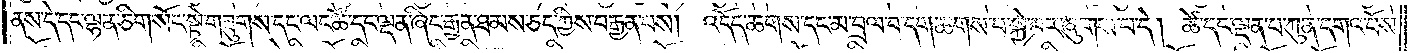ནས་དེ་དང་ལྷན་ཅིག་སོང་སྟེ་གཟུགས་དང་ལང་ཚོ་དང་ལྡན་ཞིང་རྒྱན་ཐམས་ཅད་ཀྱིས་བརྒྱན་པས། འདོད་ཆགས་དང་མ་བྲལ་བ་དག་ཆགས་པ་སྐྱེ་བར་ཞུགས་པ་དེ། ཚེ་དང་ལྡན་པ་ཀུན་དགའ་བོས་
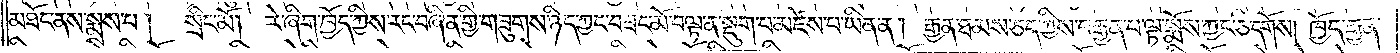མཐོང་ནས་སྨྲས་པ། སྲིང་མོ། རེ་ཞིག་ཁྱོད་ཀྱིས་རང་བཞིན་གྱི་གཟུགས་ཉིད་ཀྱང་བཟང་མོ་བལྟ་ན་སྡུག་པ་མཛེས་པ་ཡིན་ན། རྒྱན་ཐམས་ཅད་ཀྱིས་བརྒྱན་པ་ལྟ་སྨོས་ཀྱང་ཅི་དགོས། ཁྱོད་རྒྱན་
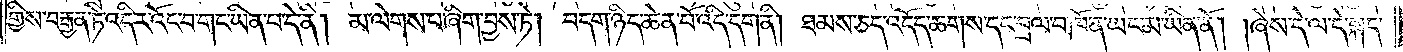གྱིས་བརྒྱན་ཏེ་འདིར་འོང་བ་གང་ཡིན་པ་དེ་ནི། མ་ལེགས་པ་ཞིག་བྱས་ཏེ། བདག་ཉིད་ཆེན་པོ་འདི་དག་ནི། ཐམས་ཅད་འདོད་ཆགས་དང་བྲལ་བ་ཁོ་ན་ཡང་མ་ཡིན་ནོ། །ཞེས་དེ་ལ་དེ་སྐད་
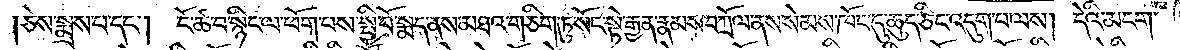ཅེས་སྨྲས་པ་དང༌། ངོ་ཚ་བ་སྙིང་ལ་ཕོག་པས་སྤྱི་བོ་སྨད་ནས་མཐའ་གཅིག་ཏུ་སོང་སྟེ་རྒྱན་རྣམས་བཀྲོལ་ནས་སེམས་ཁོང་དུ་ཆུད་ཅིང་འདུག་པ་ལས། དེའི་མངག་
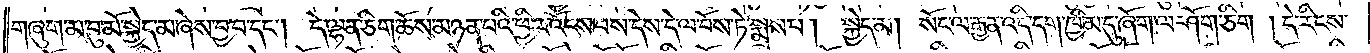གཞུག་མ་བུ་མོ་སྐྱེད་མ་ཞེས་བྱ་བ་དང༌། དེ་ལྷན་ཅིག་ཆོས་མཉན་པའི་ཕྱིར་འོངས་པས་དེས་དེ་ལ་བོས་ཏེ་སྨྲས་པ། སྐྱེད་མ། སོང་ལ་རྒྱན་འདི་དག་ཁྱིམ་དུ་ཞོག་ལ་ཤོག་ཅིག །དེ་རིངས་
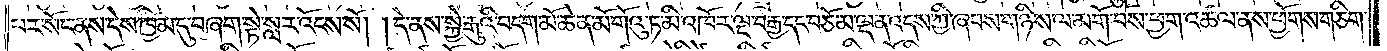པར་སོང་ནས་དེས་ཁྱིམ་དུ་བཞག་སྟེ་སླར་འོངས་སོ། །དེ་ནས་སྐྱེ་རྒུའི་བདག་མོ་ཆེན་མོ་གོའུ་ཏ་མི་འཁོར་ལྔ་བརྒྱ་དང་བཅོམ་ལྡན་འདས་ཀྱི་ཞབས་གཉིས་ལ་མགོ་བོས་ཕྱག་འཚལ་ནས་ཕྱོགས་གཅིག་
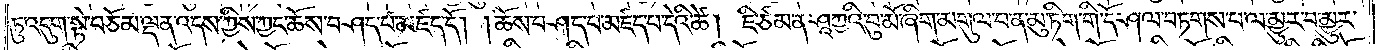ཏུ་འདུག་སྟེ་བཅོམ་ལྡན་འདས་ཀྱིས་ཀྱང་ཆོས་བཤད་པ་མཛད་དོ། །ཆོས་བཤད་པ་མཛད་པ་དེའི་ཚེ། ཇི་ཙམ་ན་ཤཱཀྱའི་བུ་མོ་ཞིག་མགུལ་བ་ན་མུ་ཏིག་གི་དོ་ཤལ་བཏགས་པ་ལ་མྱུར་བ་མྱུར་
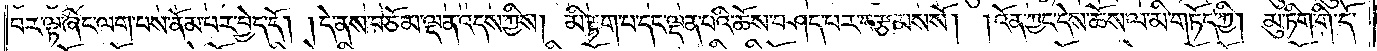བར་ལྟ་ཞིང་ལག་པས་ནོམ་པར་བྱེད་དོ། །དེ་ནས་བཅོམ་ལྡན་འདས་ཀྱིས། མི་རྟག་པ་དང་ལྡན་པའི་ཆོས་བཤད་པར་བརྩམས་སོ། །འོན་ཀྱང་དེས་ཆོས་ལ་མི་གཏོད་ཀྱི། མུ་ཏིག་གི་དོ་
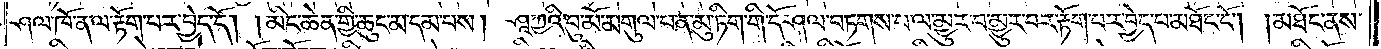ཤལ་ཁོ་ན་ལ་རྟོག་པར་བྱེད་དོ། །མིང་ཆེན་གྱི་ཆུང་མ་དམ་པས། ཤཱཀྱའི་བུ་མོ་མགུལ་པ་ན་མུ་ཏིག་གི་དོ་ཤལ་བཏགས་པ་ལ་མྱུར་བ་མྱུར་བར་རྟོག་པར་བྱེད་པ་མཐོང་ངོ༌། །མཐོང་ནས་
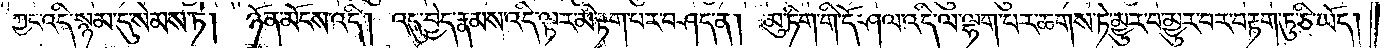ཀྱང་འདི་སྙམ་དུ་སེམས་ཏེ། ཉོན་མོངས་འདི། འདུ་བྱེད་རྣམས་འདི་ལྟར་མི་རྟག་བར་བཤད་ན། མུ་ཏིག་གི་དོ་ཤལ་འདི་ལ་ལྷག་པར་ཆགས་ཏེ་མྱུར་བ་མྱུར་བར་བརྟག་ཏུ་ཅི་ཡོད།
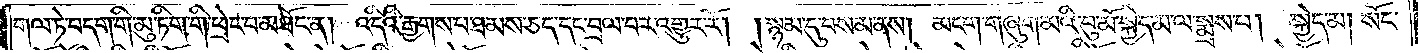གལ་ཏེ་བདག་གི་མུ་ཏིག་གི་ཕྲེང་བ་མཐོང་ན། འདིའི་རྒྱགས་པ་ཐམས་ཅད་དང་བྲལ་བར་འགྱུར་རོ། །སྙམ་དུ་བསམ་ནས། མངག་གཞུག་མའི་བུ་མོ་སྐྱེད་མ་ལ་སྨྲས་པ། སྐྱེད་མ། སོང་
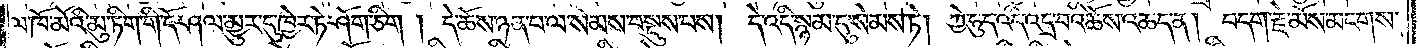ལ་ཁོ་མོའི་མུ་ཏིག་གི་དོ་ཤལ་མྱུར་དུ་ཁྱེར་ཏེ་ཤོག་ཅིག །དེ་ཆོས་ཉན་པ་ལ་སེམས་བསྡུས་པས། དེ་འདི་སྙམ་དུ་སེམས་ཏེ། ཀྱེ་ཧུད་འདི་འདྲ་བའི་ཆོས་འཆད་ན། བདག་རྗེ་མོས་མངགས་
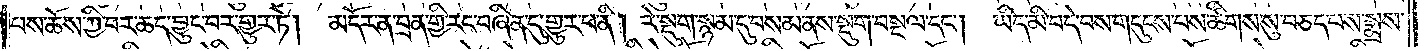པས་ཆོས་ཀྱི་བར་ཆད་བྱུང་བར་གྱུར་ཏེ། མདོར་ན་བྲན་གྱི་རང་བཞིན་དུ་གྱུར་པ་ནི། རེ་སྡུག་སྙམ་དུ་བསམ་ནས་སྡུག་བསྔལ་དང༌། ཡིད་མི་བདེ་བས་གདུངས་པས་ཚིགས་སུ་བཅད་པས་སྨྲས་
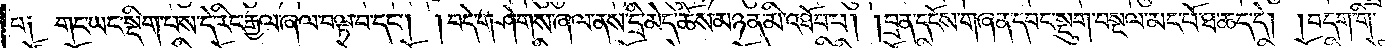པ༑ གང་ཡང་སྡིག་པས་དེ་རིང་རྒྱལ་ཞལ་བལྟ་བ་དང༌། །བདེ་གཤེགས་ཞལ་ནས་དྲི་མེད་ཆོས་མཉན་མི་འཐོབ་པ། །བྲན་དངོས་གཞན་དབང་སྡུག་བསྔལ་མང་པོ་ཐ་ཆད་དེ། །བདག་གི་
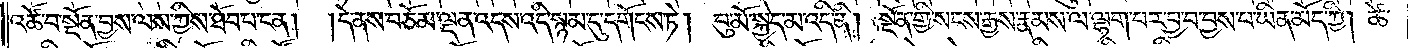འཚོ་བ་སྔོན་བྱས་ལས་ཀྱིས་ཐོབ་པ་ངན། །དེ་ནས་བཅོམ་ལྡན་འདས་འདི་སྙམ་དུ་དགོངས་ཏེ། བུ་མོ་སྐྱེད་མ་འདི་ནི། སྔོན་གྱི་སངས་རྒྱས་རྣམས་ལ་ལྷག་པར་བྱ་བ་བྱས་པ་ཡིན་མོད་ཀྱི། ཚེ་
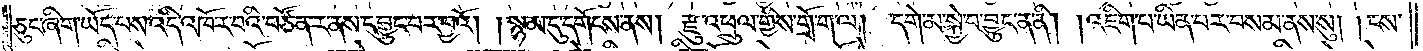ཅུང་ཞིག་ཡོད་པས་འདི་འཁོར་བའི་བཙོན་ར་ནས་དབྱུང་བར་བྱའོ། །སྙམ་དུ་དགོངས་ནས། རྫུ་འཕྲུལ་གྱིས་གྲོ་ག་ལ། དགེ་མ་སྐྱེ་བ་བྱུང་ན་ནི། །འཇིག་པ་ཡིན་པར་བསམ་ནས་སུ། །ངས་
